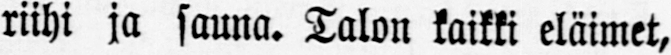riihi ja sauna. Talon kaikki eläimet,
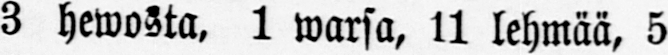3 hewosta. 1 warsa, 11 lehmää, 5
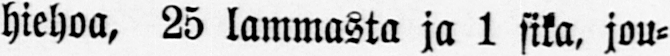hiehoa, 25 lammasta ja 1 sika, jou-
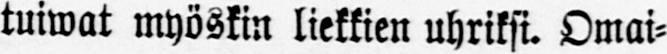tuiwat myöskin liekkien uhriksi. Omai-
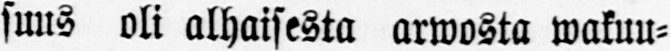suus oli alhaisesta arwosta wakuu-
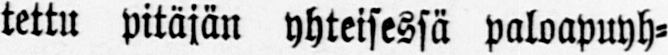tettu pitäjän yhteisessä paloapuyh-
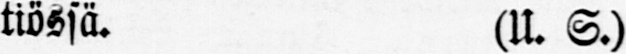tiössä. (u. S.)
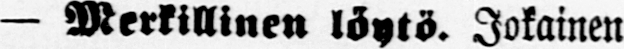— Merkillinen löytö. Jokainen
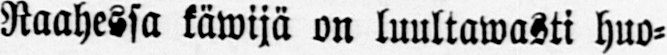Raahessa käwijä on luultawasti huo-
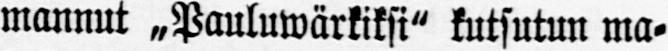mannut „Pauluwärkiksi" kutsutun ma-
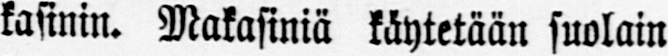kasinin. Makasiniä käytetään suolain
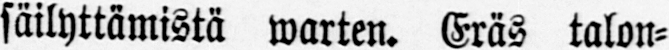säilyttämistä warten. Eräs talon-
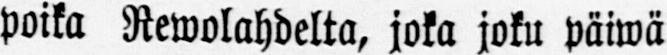poika Rewolahdelta, joka joku päiwä
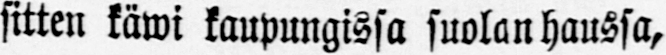sitten käwi kaupungissa suolan haussa,
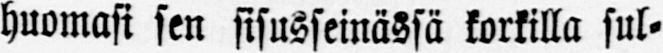huomasi sen sisusseinässä korkilla sul-
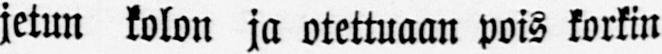jetun kolon ja otettuaan pois korkin
